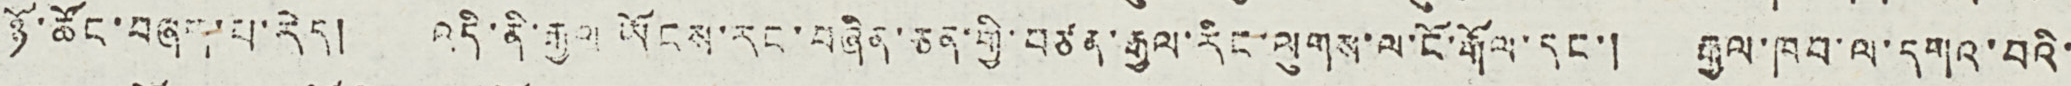ཉོ་ཚོང་བཞག་པ་རེད། འདི་ནི་རྒྱལ ཡོངས་རང་བཞིན་ཅན་གྱི་བཙན་རྒྱལ་རིང་ལུགས་ལ་ངོ་རྒོལ་དང་། རྒྱལ་ཁབ་ལ་དགའ་བའི་
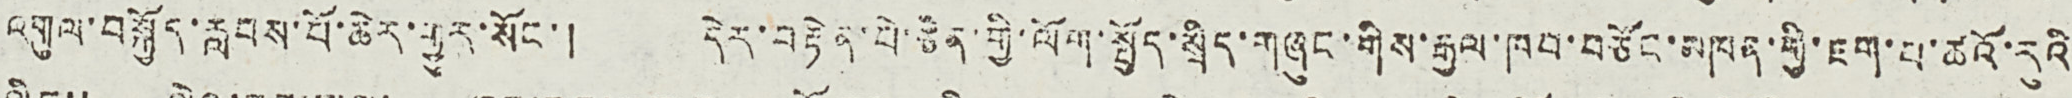འགུལ་བསྐྱོད་རླབས་པོ་ཆེར་གྱུར་སོང་། དེར་བརྟེན་པེ་ཅིན་གྱི་ལོག་སྤྱོད་སྲིད་གཞུང་གིས་རྒྱལ་ཁབ་བཙོང་མཁན་གྱི་ཇག་པ་ཚའོ་རུའི
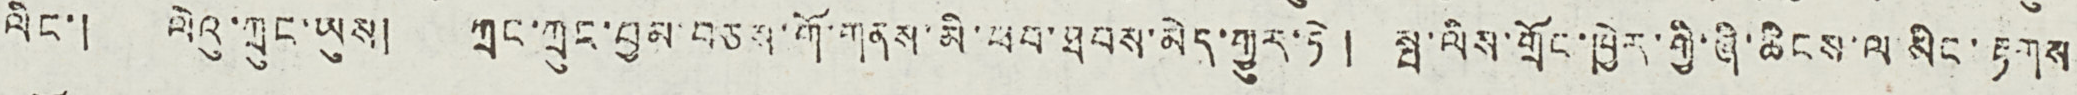ལིང་། ལེའུ་ཀྲུང་ཡུས། ཀྲང་ཀྲུང་བྱམ་བཅས་གོ་གནས་མི་ཕབ་ཐབས་མེད་གྱུར་ཏེ། སྤ་ལིས་གྲོང་ཁྱེར་གྱི་ཞི་ཆིངས་ལ་སིང་རྟགས
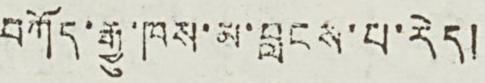བཀོད་རྒྱུ་ཁས་མ་བླངས་པ་རེད།
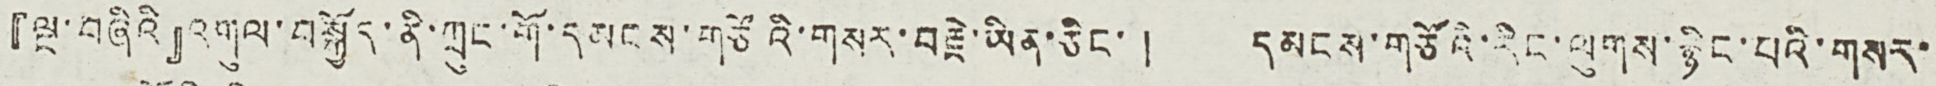『ལྔ་བཞིའི』འགུལ་བསྐྱོད་ནི་ཀྲུང་གོ་དབངས་གཙོའི་གསར་བརྗེ་ཡིན་ཅིང་། དམངས་གཙོའི་རིང་ལུགས་སྙིང་པའི་གསར་
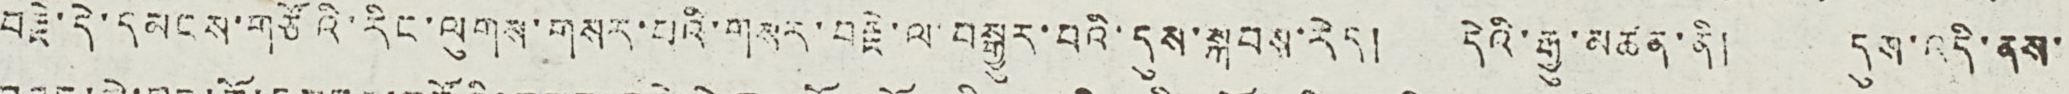བརྗེ་དེ་དམངས་གཙོའི་རིང་ལུགས་གསར་པའི་གསར་བརྗེ་ལ་བསྒྱུར་བའི་དུས་སྐབས་རེད། དེའི་རྒྱུ་མཚན་ནི། དུས་འདི་ནས་
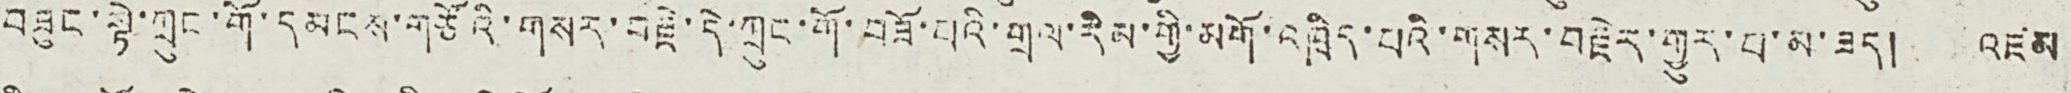བཟུང་སྟེ་ཀྲུང་གོ་དམངས་གཙོའི་གསར་བརྗེ་དེ་ཀྲུང་གོ་བཟོ་པའི་གྲལ་རིམ་གྱི་མགོ་འཁྲིད་པའི་གསར་བརྗེར་གྱུར་པ་མ་ཟད། འཛམ
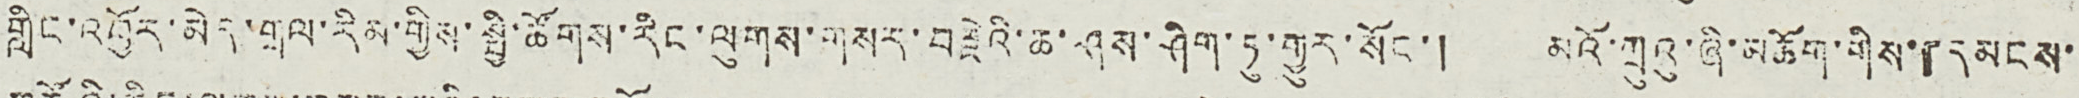གླིང་འབྱོར་མེད་གྲལ་རིམ་གྱིས་སྤྱི་ཚོགས་རིང་ལུགས་གསར་བརྗེའི་ཆ་ཤས་ཤིག་ཏུ་གྱུར་སོང་། མའོ་ཀྲུའུ་ཞི་མཆོག་གིས་『དམངས་
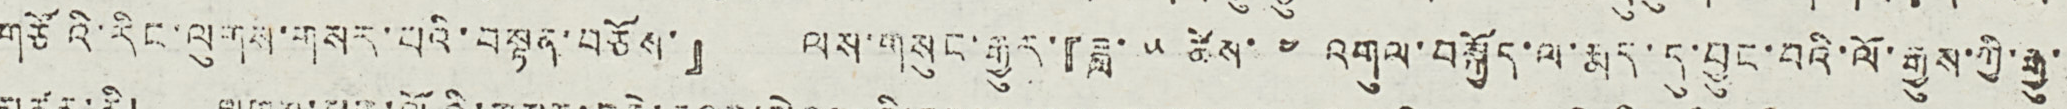གཙོའི་རིང་ལུགས་གསར་པའི་བསྟན་བཅོས་』 ལས་གསུང་རྒྱུར་『ཟླ་ ༥ ཚེས་ ༤ འགུལ་བསྐྱོད་ལ་རྨད་དུ་བྱུང་བའི་ལོ་རྒྱུས་ཀྱི་རྒྱུ་
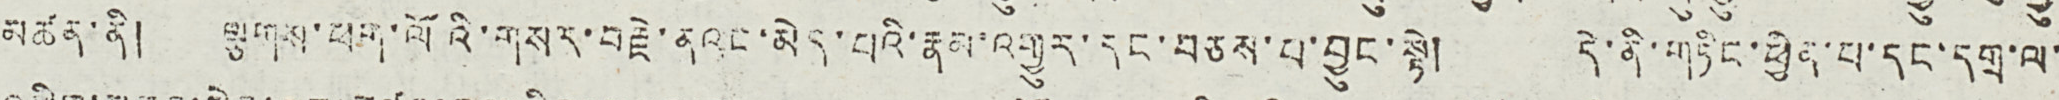མཚན་ནི། ལྕགས་ཕག་ལོའི་གསར་བརྗེ་ནའང་མེད་པའི་རྣམ་འགྱུར་དང་བཅས་པ་བྱུང་སྟེ། དེ་ནི་གཏིང་ཕྱིན་པ་དང་དགྲ་ལ་
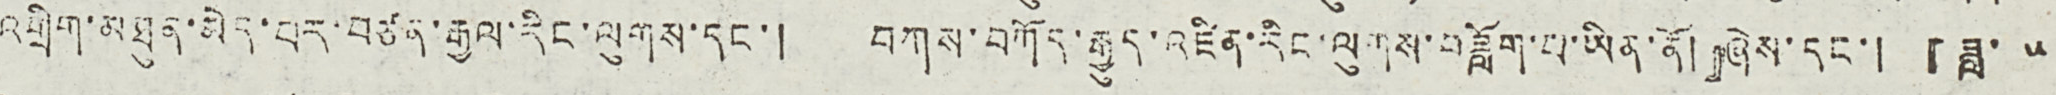འགྲིག་མཐུན་མེད་པར་བཙན་རྒྱལ་རིང་ལུགས་དང་། བཀས་བཀོད་རྒྱུད་འཛིན་རིང་ལུགས་བཟློག་པ་ཡིན་ནོ།』ཞེས་དང་། 『ཟླ་ ༥
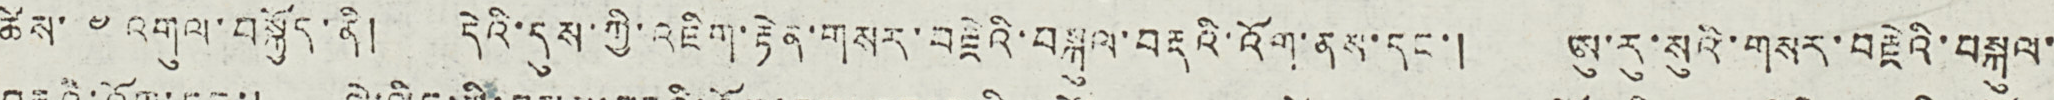ཚེས་ ༤ འགུལ་བསྐྱོད་ནི། དེའི་དུས་ཀྱི་འཇིག་རྟེན་གསར་བརྗེའི་བསྐུལ་བརྡའི་འོག་ནས་དང་། ཨུ་རུ་སུའི་གསར་བརྗེའི་བསྐུལ་
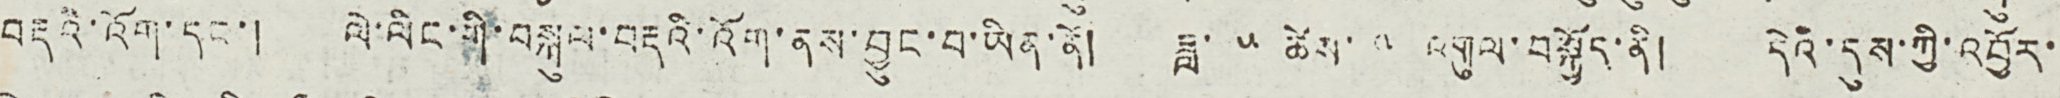བརྡའི་འོག་དང་། ལེ་ལིང་གི་བསྐུལ་བརྡའི་འོག་ནས་བྱུང་བ་ཡིན་ནོ། ཟླ་ ༥ ཚེས་ ༤ འགུལ་བསྐྱོད་ནི། དེའི་དུས་ཀྱི་འབྱོར་
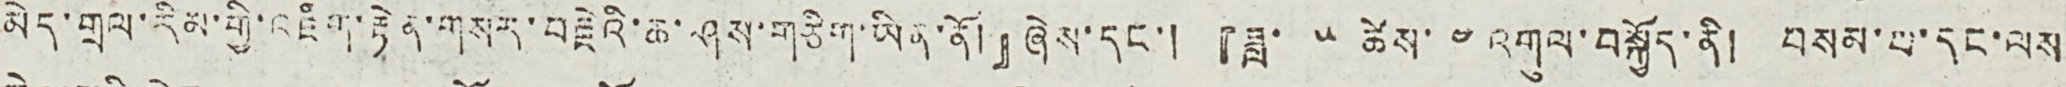མེད་གྲལ་རིམ་གྱི་འཇིག་རྟེན་གསར་བརྗེའི་ཆ་ཤས་གཅིག་ཡིན་ནོ།』ཞེས་དང་། 『ཟླ་ ༥ ཚེས་ ༤ འགུལ་བསྐྱོད་ནི། བསམ་པ་དང་ལས
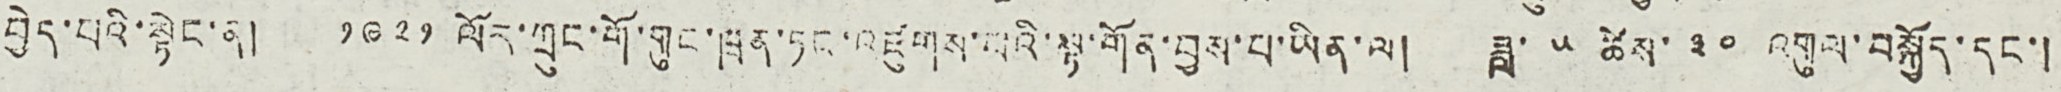བྱེད་པའི་སྟེང་ན། ༡༩༢༡ ལོར་ཀྲུང་གོ་གུང་ཁྲན་ཏང་འཛུགས་པའི་སྟ་གོང་བྱས་པ་ཡིན་ལ། ཟླ་ ༥ ཚེས་ ༣༠ འགུལ་བསྐྱོད་དང་།
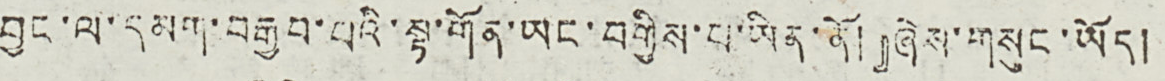བྱང་ལ་དམག་བརྒྱབ་པའི་སྟ་གོན་ཡང་བགྱིས་པ་ཡིན་ནོ།』ཞེས་གསུང་ཡོད།
